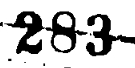283
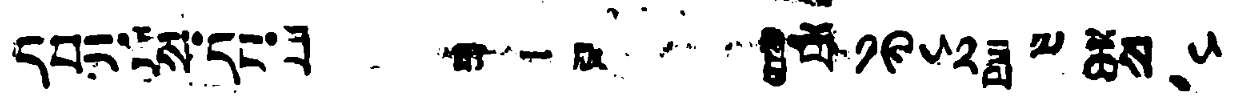འདར་ངོས་དང་པོ 第一版 སྤྱི་ལོ་ ༡༩༥༢ཟླ ༧ ཚེས ༥
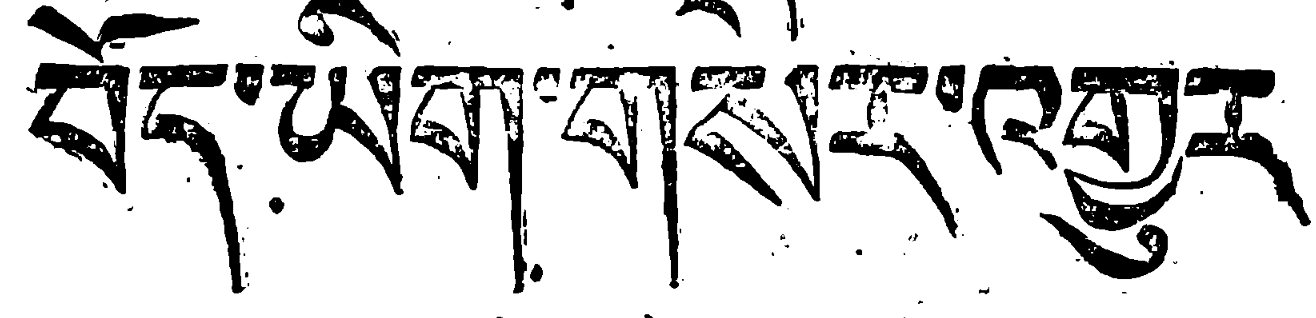བོད་ཡིག་གསར་འགྱུར
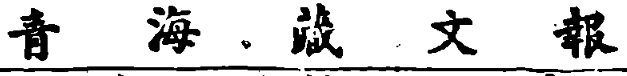青 海 藏 文 報
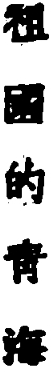祖 國 的 靑 海
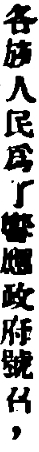各族人民爲了相應政府號召，
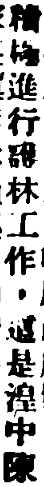積極進行護林工作，這是湟中陳
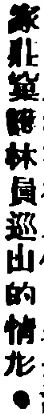家莊窠護林員巡山的情況。
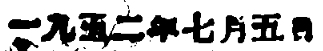一九五二年七月五日
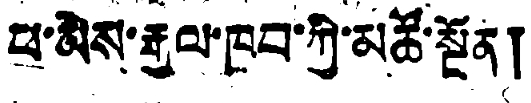ཕ་མེས་རྒྱལ་ཁབ་ཀྱི་མཚོ་སྔོན།
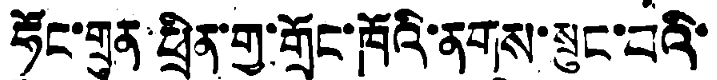ཧོར་གྲུན ཕྲིན་གྱ་གྲོང་ཁོའི་ནགས་སྲུང་བའི་
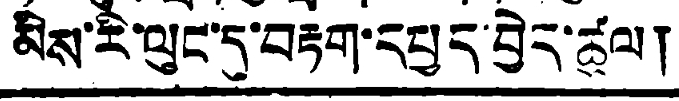མིས་རི་ལུང་དུ་བརྟག་དཔྱད་བྱེད་ཚུལ།
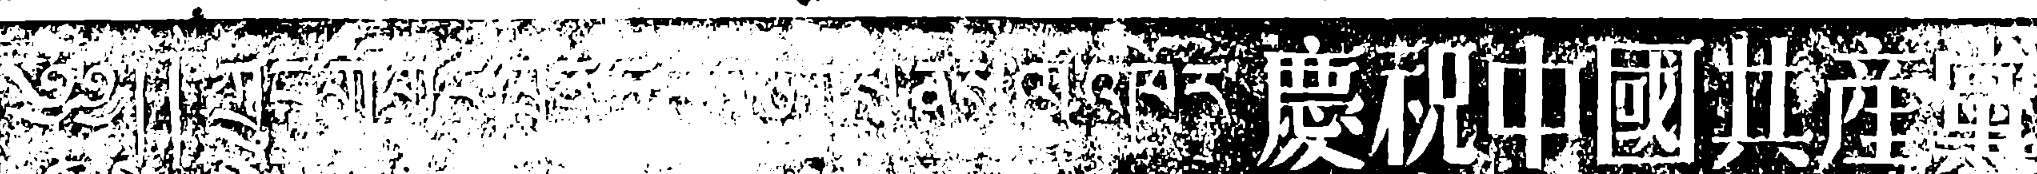༄༅། །ཀྲུང་གོ་གུང་ཁྲན་ཏང་བཙུགས་ནས་ལོ་འཁོར་ 慶祝中國共產黨
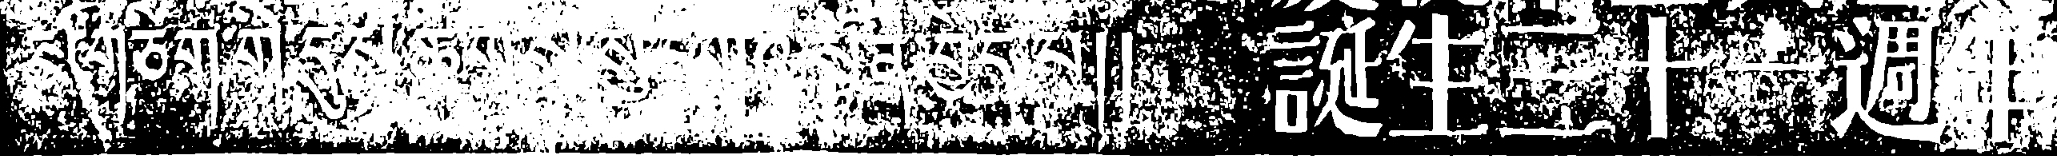སོ་གཅིག་གི་དུས་ཚིགས་སུ་དགའ་སྟོན་བྱེད་པ།། 誕生三十一週年
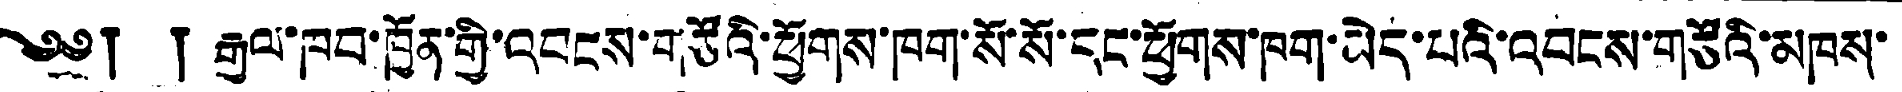༄༅། ། རྒྱལ་ཁབ་ཁྱོན་གྱི་འབངས་གཙོའི་ཕྱོགས་ཁག་སོ་སོ་དང་ཕྱོགས་ཁག་མེད་པའི་འབངས་གཙོའི་མཁས་
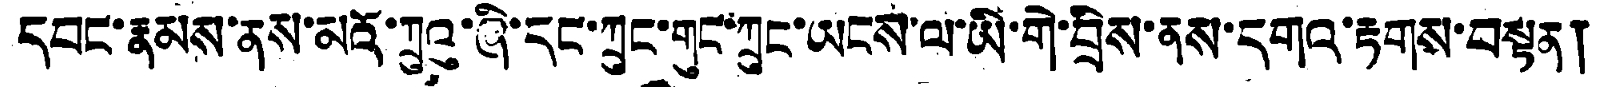དབང་རྣམས་ནས་མའོ་ཀྲུའུ་ཞི་དང་ཀྲུང་གུང་ཀྲུང་ཡངས་ལ་ཡི་གེ་བྲིས་ནས་དགའ་རྟགས་བསྟན།
